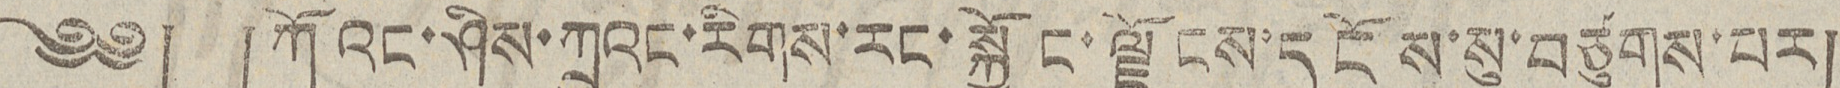༄༅། །ཀོའང་ཤིས་ཀྲུའང་རིགས་རང་སྐྱོང་ལྗོངས་དངོས་སུ་བཙུགས་པར།
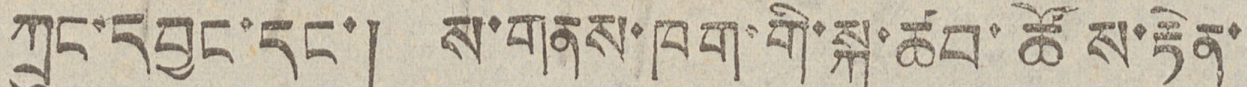ཀྲུང་དབྱང་དང་། ས་གནས་ཁག་གི་སྐུ་ཚབ་ཚོས་རྟེན་
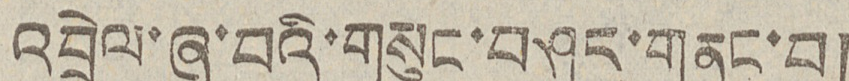འབྲེལ་ཞུ་བའི་གསུང་བཤང་གནང་བ།
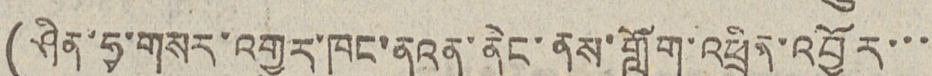(ཤིན་ཧྭ་གསར་འགྱུར་ཁང་ནའན་ནེང་ནས་གློག་འཕྲིན་འབྱོར་་་
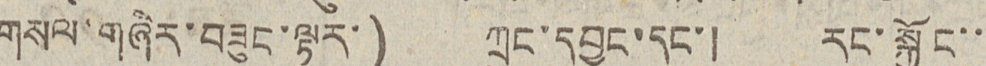གསལ་གཞིར་བཟུང་ལྟར་) ཀྲུང་དབྱང་དང་། རང་སྐྱོང་་
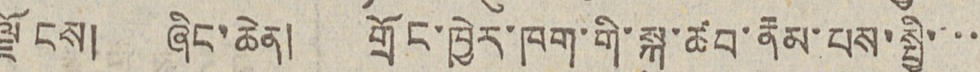ལྗོངས། ཞིང་ཆེན། གྲོང་ཁྱེར་ཁག་གི་སྐུ་ཚབ་རྣམ་པས་སྤྱི་་་་
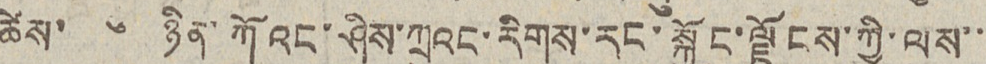ཚེས་ ༦ ཉིན་ཀོའང་ཤིས་ཀྲུའང་རིགས་རང་སྐྱོང་ལྗོངས་ཀྱི་ལས་་
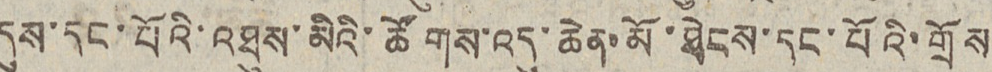དུས་དང་པོའི་འཐུས་མིའི་ཚོགས་འདུ་ཆེན་མོ་ཐེངས་དང་པོའི་གྲོས
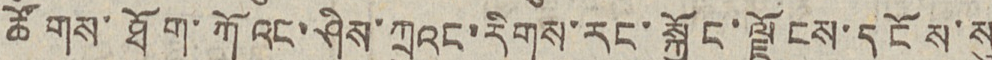ཚོགས་ཐོག་ཀོའང་ཤིས་ཀྲུའང་རིགས་རང་སྐྱོང་ལྗོངས་དངོས་སུ
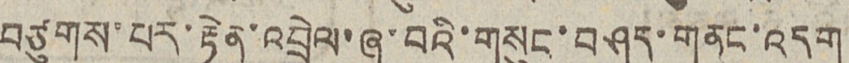བཙུགས་པར་རྟེན་འབྲེལ་ཞུ་བའི་གསུང་བཤད་གནང་འདུག
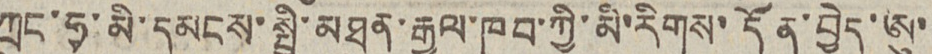ཀྲུང་ཧྭ་མི་དམངས་སྤྱི་མཐུན་རྒྱལ་ཁབ་ཀྱི་མི་རིགས་དོན་བྱེད་ཨུ་
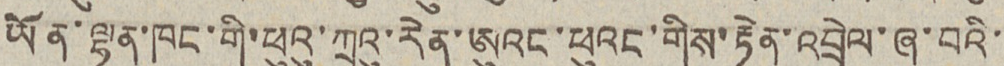ཡོན་ལྷན་ཁང་གི་ཕུའུ་ཀྲུའུ་རེན་ཨུའང་ཕུའང་གིས་རྟེན་འབྲེལ་ཞུ་བའི་
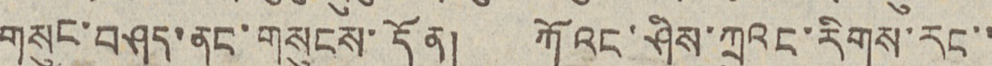གསུང་བཤད་ནང་གསུངས་དོན། ཀོའང་ཤིས་ཀྲུའང་རིགས་རང་་
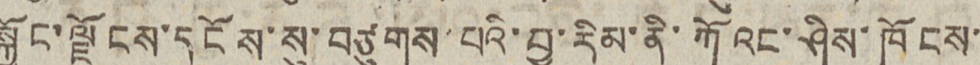སྐྱོང་ལྗོངས་དངོས་སུ་བཙུགས་པའི་བྱ་རིམ་ནི་ཀོའང་ཤིས་ཁོངས་
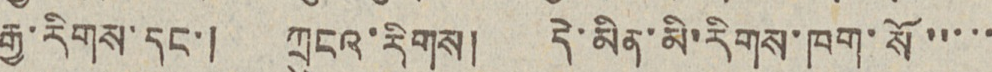རྒྱ་རིགས་དང་། ཀྲུངའ་རིགས། དེ་མིན་མི་རིགས་ཁག་སོ་་་་་
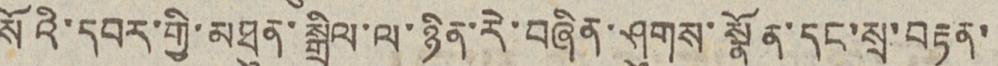སོའི་དབར་གྱི་མཐུན་སྒྲིལ་ལ་ཉིན་རེ་བཞིན་ཤུགས་སྣོན་དང་སྲ་བརྟན་
